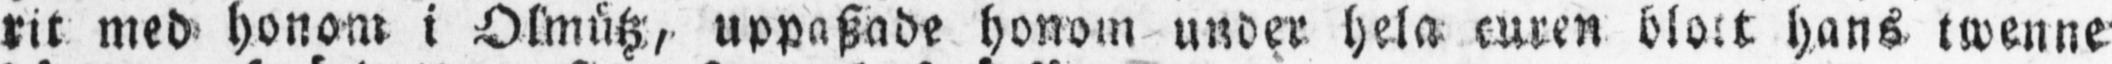rit med honom i Olmütz, uppaszade honom under hela curen blott hans twenne
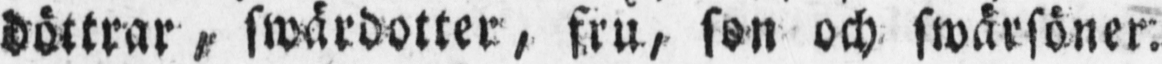döttrar, swärdotter, fru, son och swärsöner.
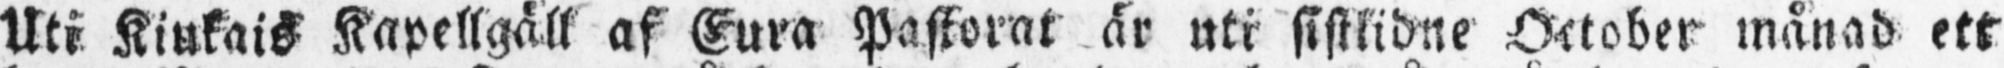Uti Kiukais Kapellgäll af Eura Pastorat är uti sistlidne Oktober månad ett
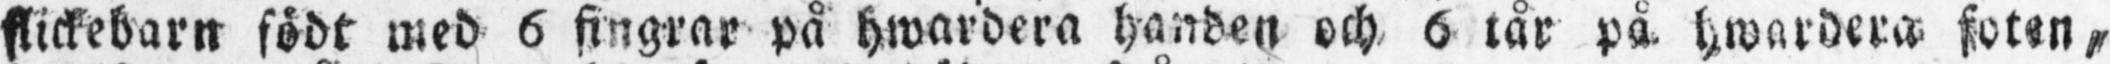flickebarn födt med 6 fingrar på hwardera handen och 6 tår på hwardera foten,
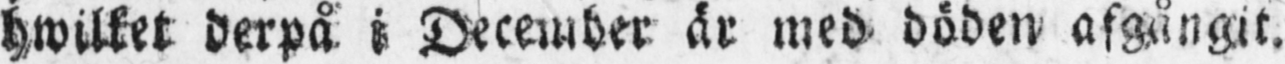hwilket derpå i December är med döden afgångit.
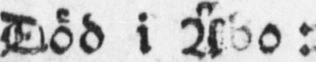Död i Åbo:
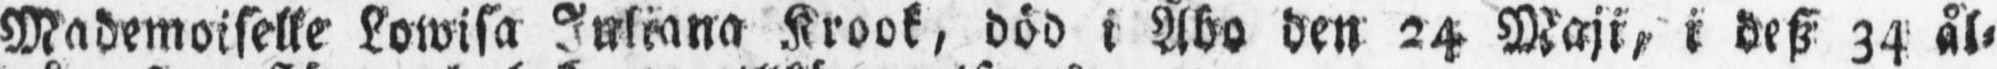Mademoiselle Lowisa Juliana Krook, död i Åbo den 24 Maji, i desz 34 ål-
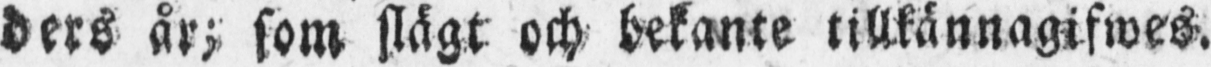ders år; som slägt och bekante tillkännagifwes.
